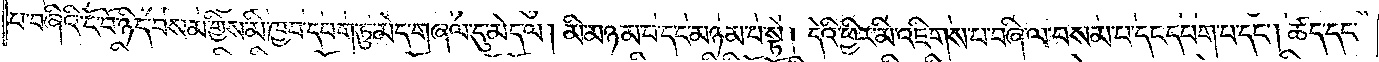པ་བཞིའི་ངོ་བོ་ཉིད་བསམ་གྱིས་མི་ཁྱབ་དཔག་ཏུ་མེད་གཞལ་དུ་མེད་ལ། མི་མཉམ་པ་དང་མཉམ་པ་སྟེ། དེའི་ཕྱིར་མི་འཇིགས་པ་བཞི་ལ་བསམ་པ་དང་དཔག་པ་དང༌། ཚད་དང་
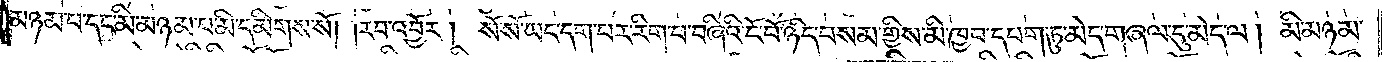མཉམ་པ་དང་མི་མཉམ་པ་མི་དམིགས་སོ། །རབ་འབྱོར། སོ་སོ་ཡང་དག་པར་རིག་པ་བཞིའི་ངོ་བོ་ཉིད་བསམ་གྱིས་མི་ཁྱབ་དཔག་ཏུ་མེད་གཞལ་དུ་མེད་ལ། མི་མཉམ་
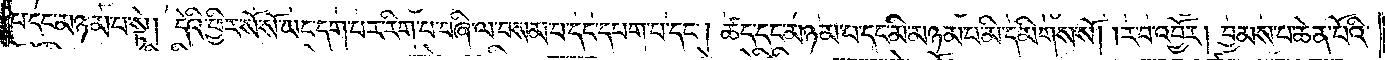པ་དང་མཉམ་པ་སྟེ། དེའི་ཕྱིར་སོ་སོ་ཡང་དག་པར་རིག་པ་བཞི་ལ་བསམ་པ་དང་དཔག་པ་དང༌། ཚད་དང་མཉམ་པ་དང་མི་མཉམ་པ་མི་དམིགས་སོ། །རབ་འབྱོར། བྱམས་པ་ཆེན་པོའི་
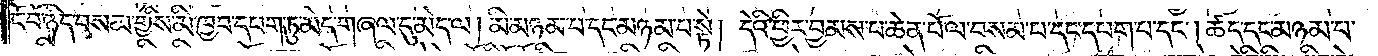ངོ་བོ་ཉིད་བསམ་གྱིས་མི་ཁྱབ་དཔག་ཏུ་མེད་གཞལ་དུ་མེད་ལ། མི་མཉམ་པ་དང་མཉམ་པ་སྟེ། དེའི་ཕྱིར་བྱམས་པ་ཆེན་པོ་ལ་བསམ་པ་དང་དཔག་པ་དང༌། ཚད་དང་མཉམ་པ་
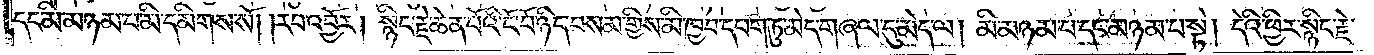དང་མི་མཉམ་པ་མི་དམིགས་སོ། །རབ་འབྱོར། སྙིང་རྗེ་ཆེན་པོའི་ངོ་བོ་ཉིད་བསམ་གྱིས་མི་ཁྱབ་དཔག་ཏུ་མེད་གཞལ་དུ་མེད་ལ། མི་མཉམ་པ་དང་མཉམ་པ་སྟེ། དེའི་ཕྱིར་སྙིང་རྗེ་
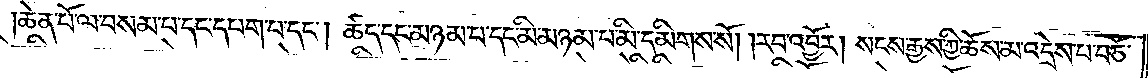ཆེན་པོ་ལ་བསམ་པ་དང་དཔག་པ་དང༌། ཚད་དང་མཉམ་པ་དང་མི་མཉམ་པ་མི་དམིགས་སོ། །རབ་འབྱོར། སངས་རྒྱས་ཀྱི་ཆོས་མ་འདྲེས་པ་བཅོ་
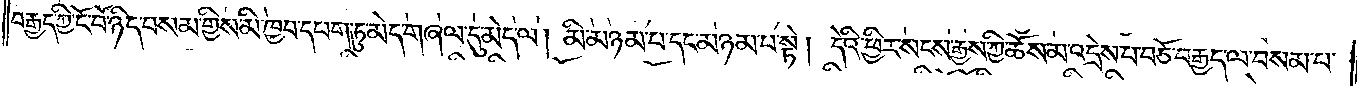བརྒྱད་ཀྱི་ངོ་བོ་ཉིད་བསམ་གྱིས་མི་ཁྱབ་དཔག་ཏུ་མེད་གཞལ་དུ་མེད་ལ། མི་མཉམ་པ་དང་མཉམ་པ་སྟེ། དེའི་ཕྱིར་སངས་རྒྱས་ཀྱི་ཆོས་མ་འདྲེས་པ་བཅོ་བརྒྱད་ལ་བསམ་པ་
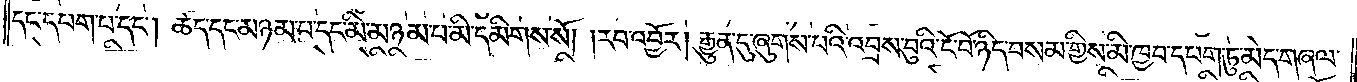དང་དཔག་པ་དང༌། ཚད་དང་མཉམ་པ་དང་མི་མཉམ་པ་མི་དམིགས་སོ། །རབ་འབྱོར། རྒྱུན་དུ་ཞུགས་པའི་འབྲས་བུའི་ངོ་བོ་ཉིད་བསམ་གྱིས་མི་ཁྱབ་དཔག་ཏུ་མེད་གཞལ་
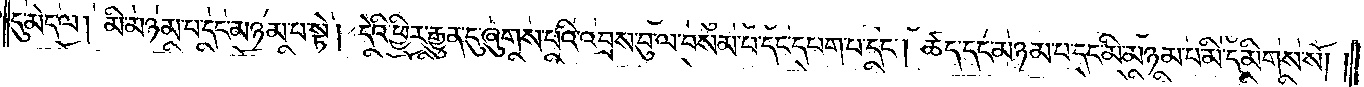དུ་མེད་ལ། མི་མཉམ་པ་དང་མཉམ་པ་སྟེ། དེའི་ཕྱིར་རྒྱུན་དུ་ཞུགས་པའི་འབྲས་བུ་ལ་བསམ་པ་དང་དཔག་པ་དང༌། ཚད་དང་མཉམ་པ་དང་མི་མཉམ་པ་མི་དམིགས་སོ། །
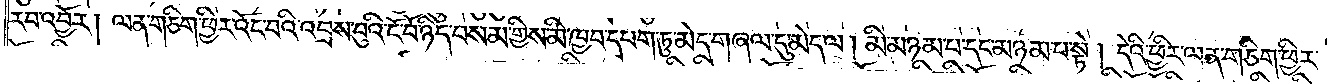རབ་འབྱོར། ལན་གཅིག་ཕྱིར་འོང་བའི་འབྲས་བུའི་ངོ་བོ་ཉིད་བསམ་གྱིས་མི་ཁྱབ་དཔག་ཏུ་མེད་གཞལ་དུ་མེད་ལ། མི་མཉམ་པ་དང་མཉམ་པ་སྟེ། དེའི་ཕྱིར་ལན་གཅིག་ཕྱིར་
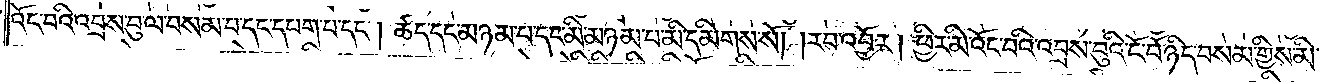འོང་བའི་འབྲས་བུ་ལ་བསམ་པ་དང་དཔག་པ་དང༌། ཚད་དང་མཉམ་པ་དང་མི་མཉམ་པ་མི་དམིགས་སོ། །རབ་འབྱོར། ཕྱིར་མི་འོང་བའི་འབྲས་བུའི་ངོ་བོ་ཉིད་བསམ་གྱིས་མི་
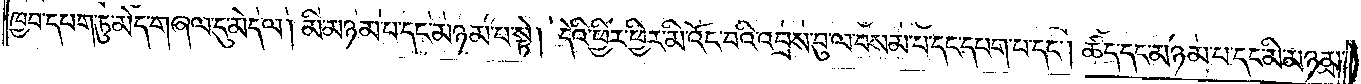ཁྱབ་དཔག་ཏུ་མེད་གཞལ་དུ་མེད་ལ། མི་མཉམ་པ་དང་མཉམ་པ་སྟེ། དེའི་ཕྱིར་ཕྱིར་མི་འོང་བའི་འབྲས་བུ་ལ་བསམ་པ་དང་དཔག་པ་དང༌། ཚད་དང་མཉམ་པ་དང་མི་མཉམ་
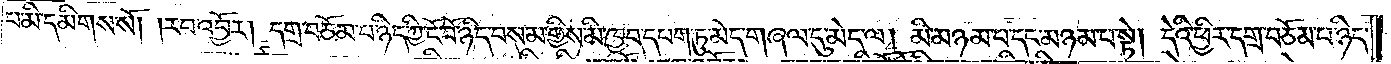པ་མི་དམིགས་སོ། །རབ་འབྱོར། དགྲ་བཅོམ་པ་ཉིད་ཀྱི་ངོ་བོ་ཉིད་བསམ་གྱིས་མི་ཁྱབ་དཔག་ཏུ་མེད་གཞལ་དུ་མེད་ལ། མི་མཉམ་པ་དང་མཉམ་པ་སྟེ། དེའི་ཕྱིར་དགྲ་བཅོམ་པ་ཉིད་
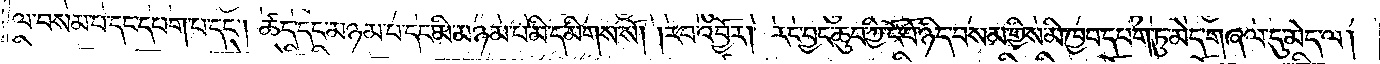ལ་བསམ་པ་དང་དཔག་པ་དང༌། ཚད་དང་མཉམ་པ་དང་མི་མཉམ་པ་མི་དམིགས་སོ། །རབ་འབྱོར། རང་བྱང་ཆུབ་ཀྱི་ངོ་བོ་ཉིད་བསམ་གྱིས་མི་ཁྱབ་དཔག་ཏུ་མེད་གཞལ་དུ་མེད་ལ།
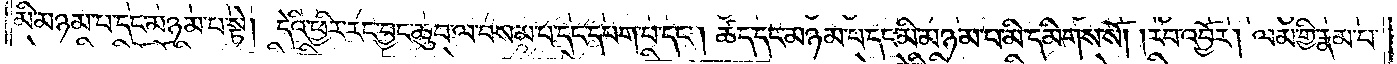མི་མཉམ་པ་དང་མཉམ་པ་སྟེ། དེའི་ཕྱིར་རང་བྱང་ཆུབ་ལ་བསམ་པ་དང་དཔག་པ་དང༌། ཚད་དང་མཉམ་པ་དང་མི་མཉམ་པ་མི་དམིགས་སོ། །རབ་འབྱོར། ལམ་གྱི་རྣམ་པ་
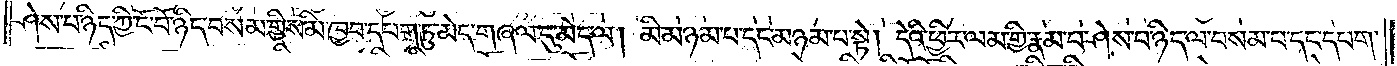ཤེས་པ་ཉིད་ཀྱི་ངོ་བོ་ཉིད་བསམ་གྱིས་མི་ཁྱབ་དཔག་ཏུ་མེད་གཞལ་དུ་མེད་ལ། མི་མཉམ་པ་དང་མཉམ་པ་སྟེ། དེའི་ཕྱིར་ལམ་གྱི་རྣམ་པ་ཤེས་པ་ཉིད་ལ་བསམ་པ་དང་དཔག་
